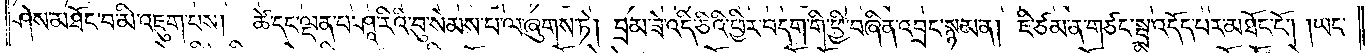ཤེས་མཐོང་བ་མི་འཇུག་པས། ཚེ་དང་ལྡན་པ་ཤཱ་རིའི་བུ་སེམས་པ་ལ་ཞུགས་ཏེ། བྲམ་ཟེ་འདི་ཅིའི་ཕྱིར་བདག་གི་ཕྱི་བཞིན་འབྲང་སྙམ་ན། ཇི་ཙམ་ན་གཙང་སྦྲ་འདོད་པར་མཐོང་ངོ༌། །ཡང་
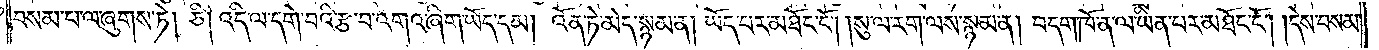བསམ་པ་ལ་ཞུགས་ཏེ། ཅི། འདི་ལ་དགེ་བའི་རྩ་བ་འགའ་ཞིག་ཡོད་དམ། འོན་ཏེ་མེད་སྙམ་ན། ཡོད་པར་མཐོང་ངོ༌། །སུ་ལ་རག་ལས་སྙམ་ན། བདག་ཁོ་ན་ལ་ཡིན་པར་མཐོང་ངོ༌། །དེས་བསམ་
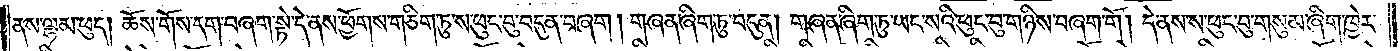ནས་ལྷམ་ཕུད། ཆོས་གོས་དག་བཞག་སྟེ་དེ་ནས་ཕྱོགས་གཅིག་ཏུ་ས་ཕུང་བུ་བདུན་བཞག །གཞན་ཞིག་ཏུ་བདུན། གཞན་ཞིག་ཏུ་ཡང་སའི་ཕུང་བུ་གཉིས་བཞག་གོ །དེ་ནས་ས་ཕུང་བུ་གསུམ་ཞིག་ཁྱེར་
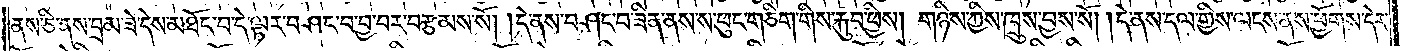ནས་ཅི་ནས་བྲམ་ཟེ་དེས་མཐོང་བ་དེ་ལྟར་བཤང་བ་བྱ་བར་བརྩམས་སོ། །དེ་ནས་བཤང་བ་ཟིན་ནས་ས་ཕུང་གཅིག་གིས་རྐུབ་ཕྱིས། གཉིས་ཀྱིས་ཁྲུས་བྱས་སོ། །དེ་ནས་དལ་གྱིས་ལངས་ནས་ཕྱོགས་དེར་
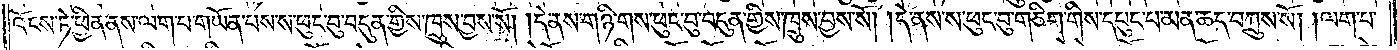འོངས་ཏེ་ཕྱིན་ནས་ལག་པ་གཡོན་པས་ས་ཕུང་བུ་བདུན་གྱིས་ཁྲུས་བྱས་སོ། །དེ་ནས་གཉི་གས་ཕུང་བུ་བདུན་གྱི་ཁྲུས་བྱས་སོ། །དེ་ནས་ས་ཕུང་བུ་གཅིག་གིས་དཔུང་པ་མན་ཆད་བཀྲུས་སོ། །ལག་པ་
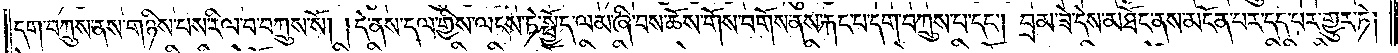དག་བཀྲུས་ནས་གཉིས་པས་རིལ་བ་བཀྲུས་སོ། །དེ་ནས་དལ་གྱིས་ལངས་ཏེ་སྤྱོད་ལམ་ཞི་བས་ཆོས་གོས་བགོས་ནས་རྐང་པ་དག་བཀྲུས་པ་དང༌། བྲམ་ཟེ་དེས་མཐོང་ནས་མངོན་པར་དད་པར་གྱུར་ཏེ།
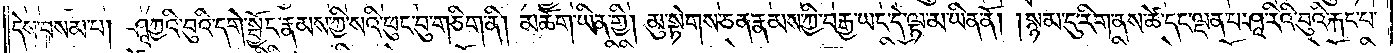དེས་བསམ་པ། ཤཱཀྱའི་བུའི་དགེ་སྦྱོང་རྣམས་ཀྱི་སའི་ཕུང་བུ་གཅིག་ནི། མཆོག་ཡིན་གྱི། མུ་སྟེགས་ཅན་རྣམས་ཀྱི་བརྒྱ་ཡང་དེ་ལྟ་མ་ཡིན་ནོ། །སྙམ་དུ་རིག་ནས་ཚེ་དང་ལྡན་པ་ཤཱ་རིའི་བུའི་རྐང་པ་
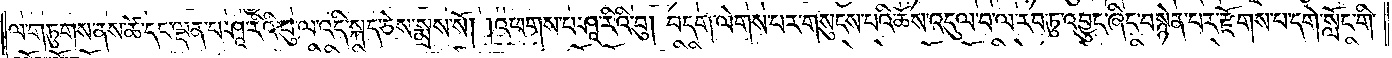ལ་གཏུགས་ནས་ཚེ་དང་ལྡན་པ་ཤཱ་རིའི་བུ་ལ་འདི་སྐད་ཅེས་སྨྲས་སོ། །འཕགས་པ་ཤཱ་རིའི་བུ། བདག་ལེགས་པར་གསུངས་པའི་ཆོས་འདུལ་བ་ལ་རབ་ཏུ་འབྱུང་ཞིང་བསྙེན་པར་རྫོགས་པ་དགེ་སློང་གི་
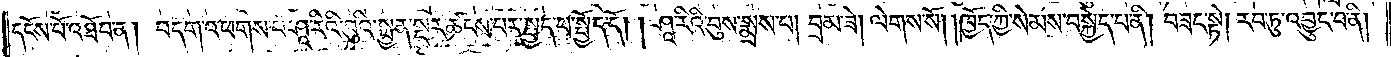དངོས་པོ་འཐོབ་ན། བདག་འཕགས་པ་ཤཱ་རིའི་བུའི་སྤྱན་སྔར་ཚངས་པར་སྤྱད་པ་སྤྱོད་དོ། །ཤཱ་རིའི་བུས་སྨྲས་པ། བྲམ་ཟེ། ལེགས་སོ། །ཁྱོད་ཀྱི་སེམས་བསྐྱེད་པ་ནི། བཟང་སྟེ། རབ་ཏུ་འབྱུང་བ་ནི།
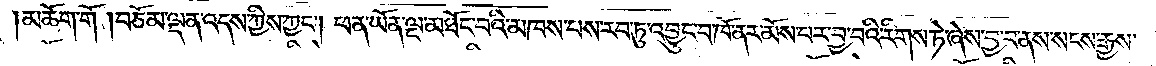མཆོག་གོ །བཅོམ་ལྡན་འདས་ཀྱིས་ཀྱང༌། ཕན་ཡོན་ལྔ་མཐོང་བའི་མཁས་པས་རབ་ཏུ་འབྱུང་བ་ཁོ་ནར་མོས་པར་བྱ་བའི་རིགས་ཏེ་ཞེས་བྱ་བ་ནས་སངས་རྒྱས་
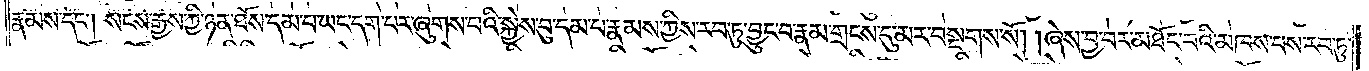རྣམས་དང༌། སངས་རྒྱས་ཀྱི་ཉན་ཐོས་དམ་པ་ཡང་དག་པར་ཞུགས་པའི་སྐྱེས་བུ་དམ་པ་རྣམས་ཀྱིས་རབ་ཏུ་བྱུང་བ་རྣམ་གྲངས་དུ་མར་བསྔགས་སོ། །ཞེས་བྱ་བར་མཐོང་བའི་མཁས་པས་རབ་ཏུ་
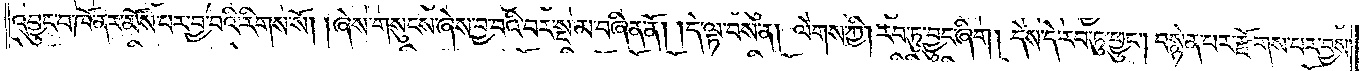འབྱུང་བ་ཁོ་ནར་མོས་པར་བྱ་བའི་རིགས་སོ། །ཞེས་གསུངས་ཞེས་བྱ་བའི་བར་སྔ་མ་བཞིན་ནོ། །དེ་ལྟ་བས་ན། ལེགས་ཀྱི། རབ་ཏུ་བྱུང་ཞིག། དེས་དེ་རབ་ཏུ་ཕྱུང༌། བསྙེན་པར་རྫོགས་པར་བྱས་
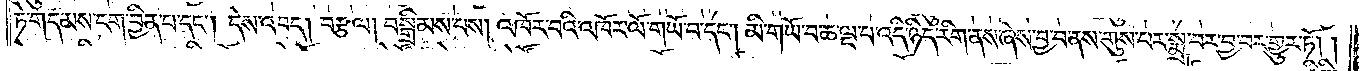ཏེ་གདམས་ངག་བྱིན་པ་དང༌། དེས་འབད། བརྩལ། བསྒྲིམས་པས། འཁོར་བའི་འཁོར་ལོ་གཡོ་བ་དང༌། མི་གཡོ་བ་ཆ་ལྔ་པ་འདི་ཉིད་རིག་ནས་ཞེས་བྱ་བ་ནས་གུས་པར་སྨྲ་བར་བྱ་བར་གྱུར་ཏོ། །
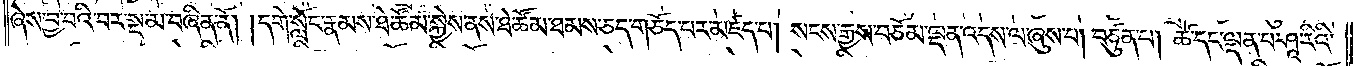ཞེས་བྱ་བའི་བར་སྔ་མ་བཞིན་ནོ། །དགེ་སློང་རྣམས་ཐེ་ཚོམ་སྐྱེས་ནས་ཐེ་ཚོམ་ཐམས་ཅད་གཅོད་པར་མཛད་པ། སངས་རྒྱས་བཅོམ་ལྡན་འདས་ལ་ཞུས་པ། བཙུན་པ། ཚེ་དང་ལྡན་པ་ཤཱ་རིའི་
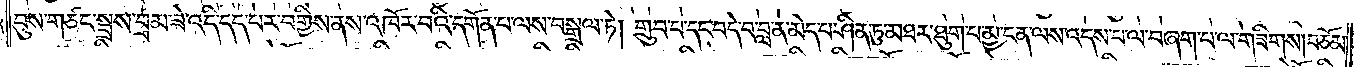བུས་གཙང་སྦྲས་བྲམ་ཟེ་འདི་དད་པར་བགྱིས་ནས་འཁོར་བའི་དགོན་པ་ལས་བསྒྲལ་ཏེ། གྲུབ་པ་དང་བདེ་བ་བླ་ན་མེད་པ་ཤིན་ཏུ་མཐར་ཐུག་པ་མྱ་ངན་ལས་འདས་པ་ལ་བཞག་པ་ལ་གཟིགས།བཅོམ་
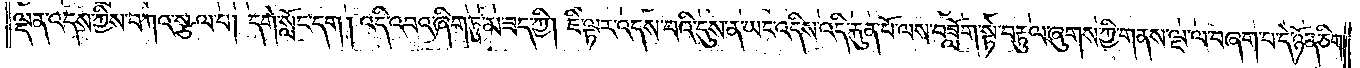ལྡན་འདས་ཀྱིས་བཀའ་སྩལ་པ། དགེ་སློང་དག །འདི་འབའ་ཞིག་ཏུ་མ་ཟད་ཀྱི། ཇི་ལྟར་འདས་པའི་དུས་ན་ཡང་འདིས་འདི་རྐུན་པོ་ལས་བཟློག་སྟེ་བརྟུལ་ཞུགས་ཀྱི་གནས་ལྔ་ལ་བཞག་པ་དེ་ཉོན་ཅིག་
